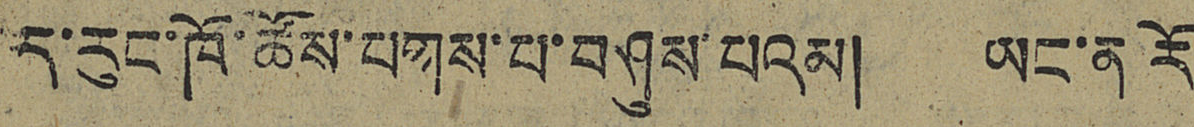ད་རུང་ཁོ་ཚོས་པགས་པ་བཤུས་པའམ། ཡང་ན་རོ
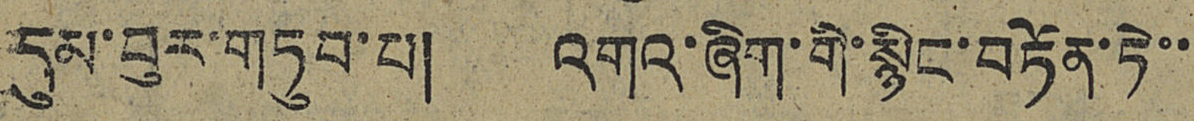དུམ་བུར་གཏུབ་པ། འགའ་ཞིག་གི་སྙིང་བཏོན་ཏེ་་
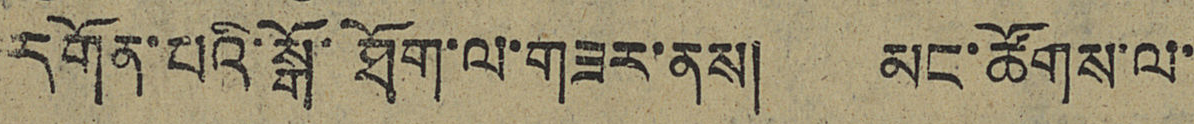དགོན་པའི་སྒོ་ཐོག་ལ་གཟར་ནས། མང་ཚོགས་ལ་
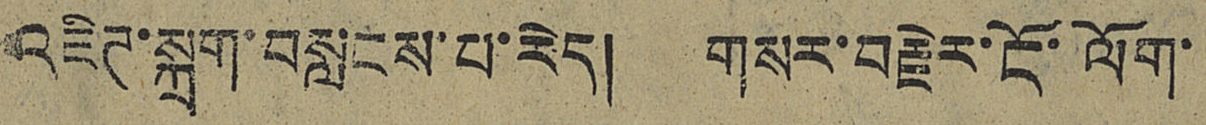འཇིཊ་སྐྲག་བསླངས་པ་རེད། གསར་བརྗེར་ངོ་ལོག་
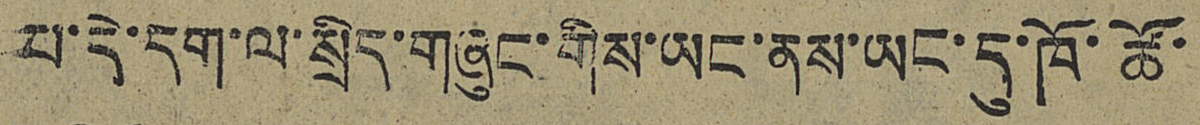པ་དེ་དག་ལ་སྲིད་གཞུང་གིས་ཡང་ནས་ཡང་དུ་ཁོ་ཚོ་
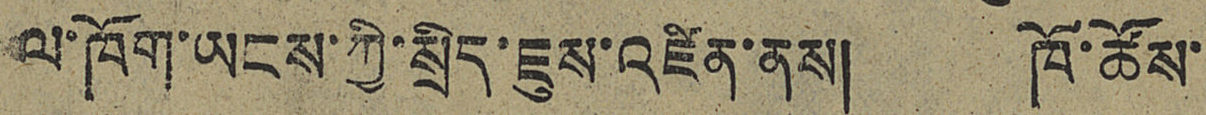ལ་ཁོག་ཡངས་ཀྱི་སྲིད་ཇུས་འཛིན་ནས། ཁོ་ཚོས་
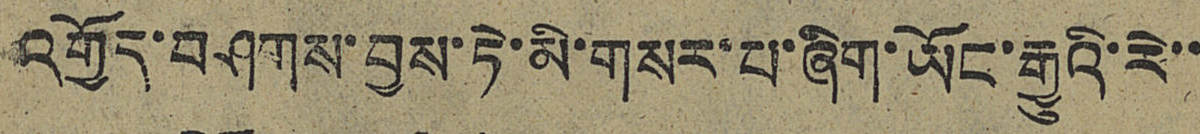འགྱོད་བཤགས་བྱས་ཏེ་མི་གསར་པ་ཞིག་ཡོང་རྒྱུའི་རེ་་
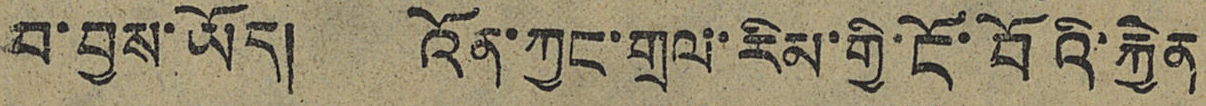བ་བྱས་ཡོད། འོན་ཀྱང་གྲལ་རིམ་གྱི་ངོ་བོའི་རྐྱེན
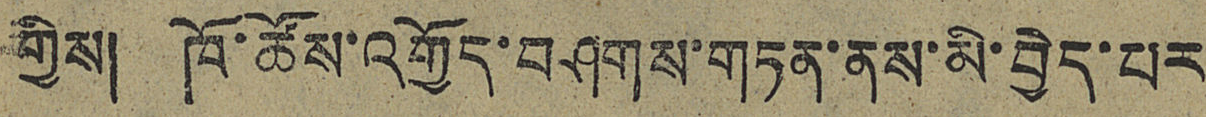གྱིས། ཁོ་ཚོས་འགྱོད་བཤགས་གཏན་ནས་མི་བྱེད་པར
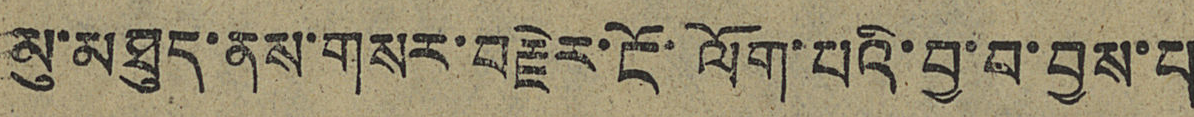མུ་མཐུད་ནས་གསར་བརྗེར་ངོ་ལོག་པའི་བྱས་བ་བྱས་པ
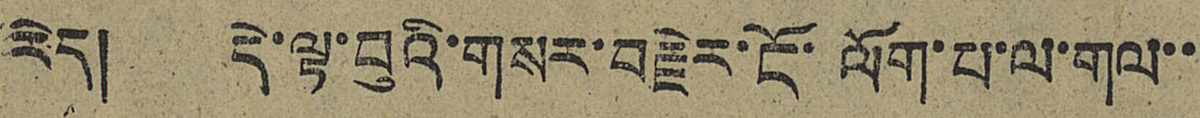རེད། དེ་ལྟ་བུའི་གསར་བརྗེར་ངོ་ལོག་པ་ལ་གལ་་
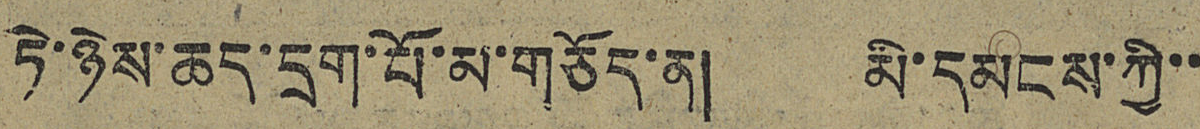ཏེ་ཉེས་ཆད་དྲག་པོ་མ་གཅོད་ན། མི་དམངས་ཀྱི་་
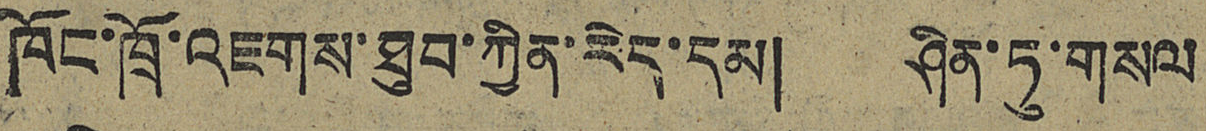ཁོང་ཁྲོ་འཇགས་ཐུབ་ཀྱིན་རེད་དམ། ཤིན་ཏུ་གསལ
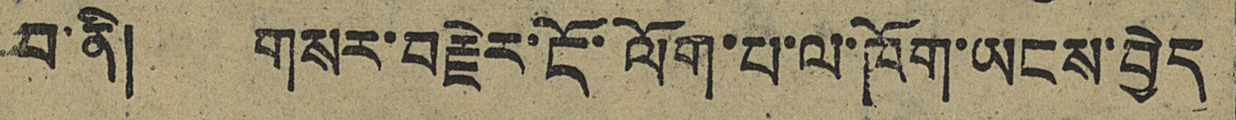བ་ནི། གསར་བརྗེར་ངོ་ལོག་པ་ལ་ཁོག་ཡངས་བྱེད
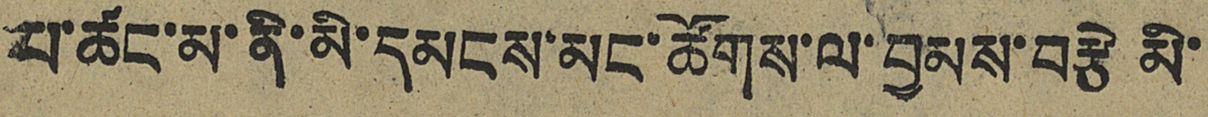པ་ཚང་མ་ནི་མི་དམངས་མང་ཚོགས་ལ་བྱམས་བརྩེ་མི་
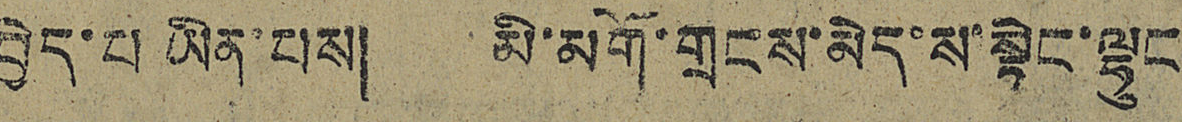བྱེད་པ་ཡིན་པས། མི་མགོ་གྲངས་མེད་ས་སྟེང་ལྷུང
